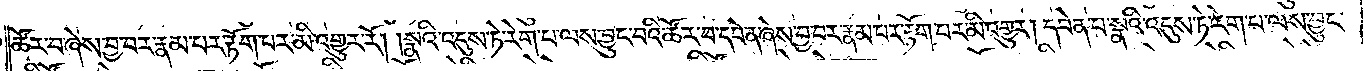ཚོར་བ་ཞེས་བྱ་བར་རྣམ་པར་རྟོག་པར་མི་འགྱུར་རོ། །སྣའི་འདུས་ཏེ་རེག་པ་ལས་བྱུང་བའི་ཚོར་བ་དབེན་ཞེས་བྱ་བར་རྣམ་པར་རྟོག་པར་མི་འགྱུར། དབེན་པ་སྣའི་འདུས་ཏེ་རེག་པ་ལས་བྱུང་
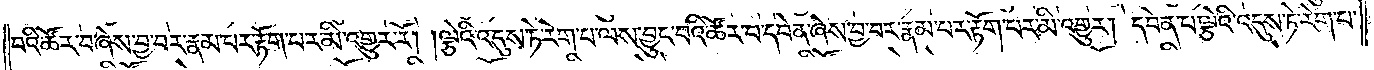བའི་ཚོར་བ་ཞེས་བྱ་བར་རྣམ་པར་རྟོག་པར་མི་འགྱུར་རོ། །ལྕེའི་འདུས་ཏེ་རེག་པ་ལས་བྱུང་བའི་ཚོར་བ་དབེན་ཞེས་བྱ་བར་རྣམ་པར་རྟོག་པར་མི་འགྱུར། དབེན་པ་ལྕེའི་འདུས་ཏེ་རེག་པ་
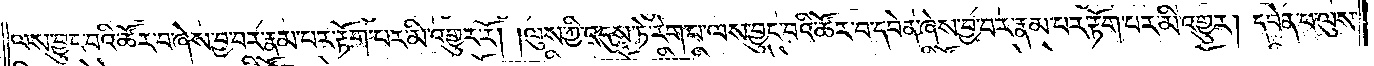ལས་བྱུང་བའི་ཚོར་བ་ཞེས་བྱ་བར་རྣམ་པར་རྟོག་པར་མི་འགྱུར་རོ། །ལུས་ཀྱི་འདུས་ཏེ་རེག་པ་ལས་བྱུང་བའི་ཚོར་བ་དབེན་ཞེས་བྱ་བར་རྣམ་པར་རྟོག་པར་མི་འགྱུར། དབེན་པ་ལུས་
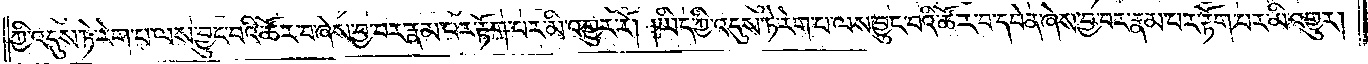ཀྱི་འདུས་ཏེ་རེག་པ་ལས་བྱུང་བའི་ཚོར་བ་ཞེས་བྱ་བར་རྣམ་པར་རྟོག་པར་མི་འགྱུར་རོ། །ཡིད་ཀྱི་འདུས་ཏེ་རེག་པ་ལས་བྱུང་བའི་ཚོར་བ་དབེན་ཞེས་བྱ་བར་རྣམ་པར་རྟོག་པར་མི་འགྱུར།
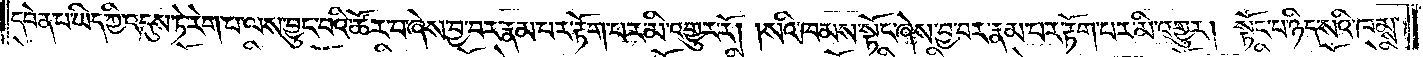དབེན་པ་ཡིད་ཀྱི་འདུས་ཏེ་རེག་པ་ལས་བྱུང་བའི་ཚོར་བ་ཞེས་བྱ་བར་རྣམ་པར་རྟོག་པར་མི་འགྱུར་རོ། །སའི་ཁམས་སྟོང་ཞེས་བྱ་བར་རྣམ་པར་རྟོག་པར་མི་འགྱུར། སྟོང་པ་ཉིད་སའི་ཁམས་
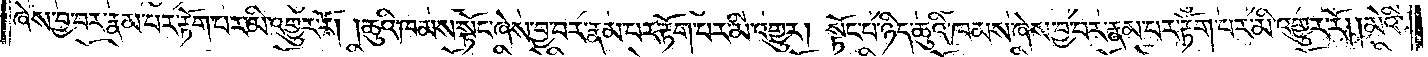ཞེས་བྱ་བར་རྣམ་པར་རྟོག་པར་མི་འགྱུར་རོ། །ཆུའི་ཁམས་སྟོང་ཞེས་བྱ་བར་རྣམ་པར་རྟོག་པར་མི་འགྱུར། སྟོང་པ་ཉིད་ཆུའི་ཁམས་ཞེས་བྱ་བར་རྣམ་པར་རྟོག་པར་མི་འགྱུར་རོ། །མེའི་
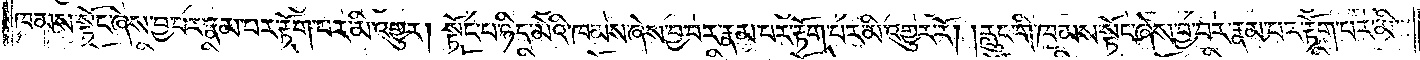ཁམས་སྟོང་ཞེས་བྱ་བར་རྣམ་པར་རྟོག་པར་མི་འགྱུར། སྟོང་པ་ཉིད་མེའི་ཁམས་ཞེས་བྱ་བར་རྣམ་པར་རྟོག་པར་མི་འགྱུར་རོ། །རླུང་གི་ཁམས་སྟོང་ཞེས་བྱ་བར་རྣམ་པར་རྟོག་པར་མི་
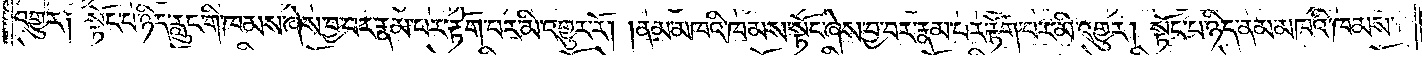འགྱུར། སྟོང་པ་ཉིད་རླུང་གི་ཁམས་ཞེས་བྱ་བར་རྣམ་པར་རྟོག་པར་མི་འགྱུར་རོ། །ནམ་མཁའི་ཁམས་སྟོང་ཞེས་བྱ་བར་རྣམ་པར་རྟོག་པར་མི་འགྱུར། སྟོང་པ་ཉིད་ནམ་མཁའི་ཁམས་
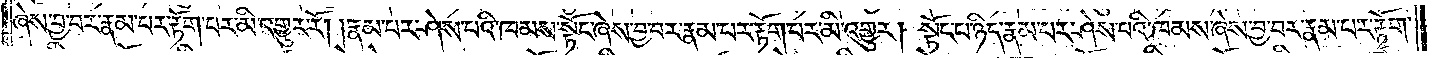ཞེས་བྱ་བར་རྣམ་པར་རྟོག་པར་མི་འགྱུར་རོ། །རྣམ་པར་ཤེས་པའི་ཁམས་སྟོང་ཞེས་བྱ་བར་རྣམ་པར་རྟོག་པར་མི་འགྱུར། སྟོང་པ་ཉིད་རྣམ་པར་ཤེས་པའི་ཁམས་ཞེས་བྱ་བར་རྣམ་པར་རྟོག་
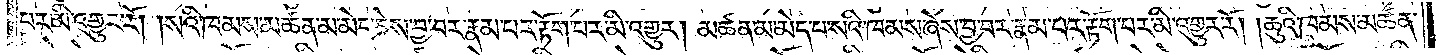པར་མི་འགྱུར་རོ། །སའི་ཁམས་མཚན་མ་མེད་ཅེས་བྱ་བར་རྣམ་པར་རྟོག་པར་མི་འགྱུར། མཚན་མ་མེད་པ་སའི་ཁམས་ཞེས་བྱ་བར་རྣམ་པར་རྟོག་པར་མི་འགྱུར་རོ། །ཆུའི་ཁམས་མཚན་
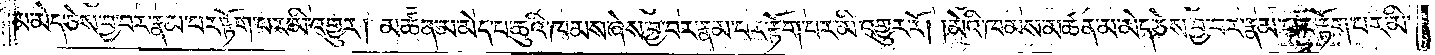མ་མེད་ཅེས་བྱ་བར་རྣམ་པར་རྟོག་པར་མི་འགྱུར། མཚན་མ་མེད་པ་ཆུའི་ཁམས་ཞེས་བྱ་བར་རྣམ་པར་རྟོག་པར་མི་འགྱུར་རོ། །མེའི་ཁམས་མཚན་མ་མེད་ཅེས་བྱ་བར་རྣམ་པར་རྟོག་པར་མི་
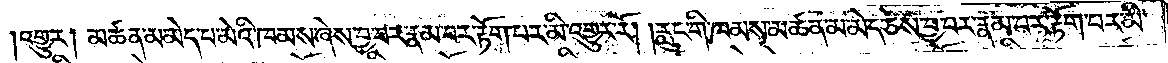འགྱུར། མཚན་མ་མེད་པ་མེའི་ཁམས་ཞེས་བྱ་བར་རྣམ་པར་རྟོག་པར་མི་འགྱུར་རོ། །རླུང་གི་ཁམས་མཚན་མ་མེད་ཅེས་བྱ་བར་རྣམ་པར་རྟོག་པར་མི་
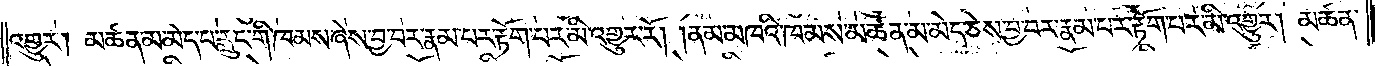འགྱུར། མཚན་མ་མེད་པ་རླུང་གི་ཁམས་ཞེས་བྱ་བར་རྣམ་པར་རྟོག་པར་མི་འགྱུར་རོ། །ནམ་མཁའི་ཁམས་མཚན་མ་མེད་ཅེས་བྱ་བར་རྣམ་པར་རྟོག་པར་མི་འགྱུར། མཚན་
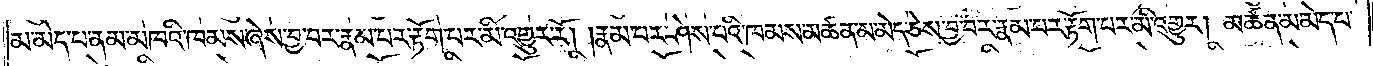མ་མེད་པ་ནམ་མཁའི་ཁམས་ཞེས་བྱ་བར་རྣམ་པར་རྟོག་པར་མི་འགྱུར་རོ། །རྣམ་པར་ཤེས་པའི་ཁམས་མཚན་མ་མེད་ཅེས་བྱ་བར་རྣམ་པར་རྟོག་པར་མི་འགྱུར། མཚན་མ་མེད་པ་
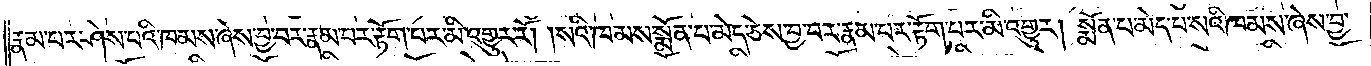རྣམ་པར་ཤེས་པའི་ཁམས་ཞེས་བྱ་བར་རྣམ་པར་རྟོག་པར་མི་འགྱུར་རོ། །སའི་ཁམས་སྨོན་པ་མེད་ཅེས་བྱ་བར་རྣམ་པར་རྟོག་པར་མི་འགྱུར། སྨོན་པ་མེད་པ་སའི་ཁམས་ཞེས་བྱ་
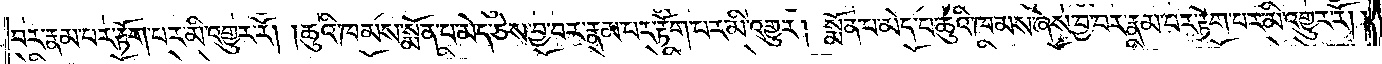བར་རྣམ་པར་རྟོག་པར་མི་འགྱུར་རོ། །ཆུའི་ཁམས་སྨོན་པ་མེད་ཅེས་བྱ་བར་རྣམ་པར་རྟོག་པར་མི་འགྱུར། སྨོན་པ་མེད་པ་ཆུའི་ཁམས་ཞེས་བྱ་བར་རྣམ་པར་རྟོག་པར་མི་འགྱུར་རོ། །
